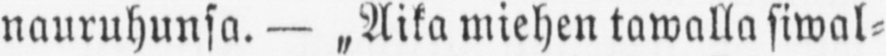nauruhunsa. — „Aika miehen tawalla siwal-
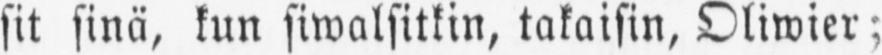sit sinä, kun siwalsitkin, takaisin, Oliwier;
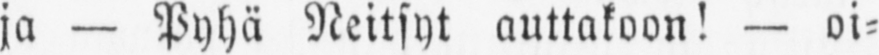ja — Pyhä Neitsyt auttakoon! — oi-
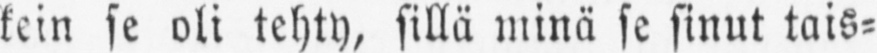kein se oli tehty, sillä minä se sinut tais-
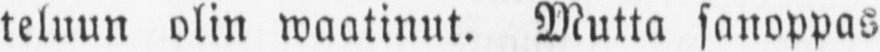teluun olin waatinut. Mutta sanoppas
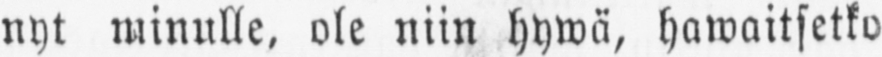nyt minulle, ole niin hywä, hawaitsetko
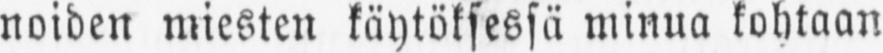noiden miesten käytöksessä minua kohtaan
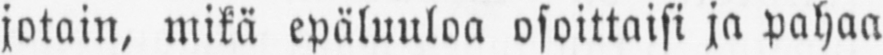jotain, mikä epäluuloa osoittaisi ja pahaa
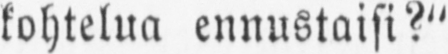kohtelua ennustaisi?"
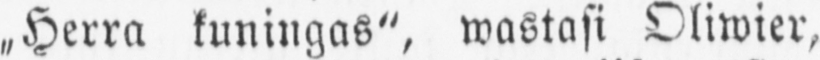„Herra kuningas", wastasi Oliwier,
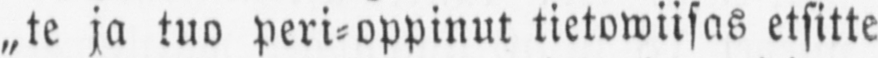„te ja tuo peri-oppinut tietowiisas etsitte
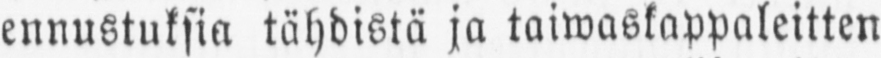ennustuksia tähdistä ja taiwaskappaleitten
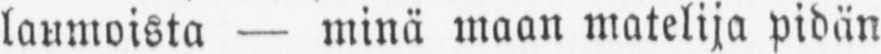laumoista — minä maan matelija pidän
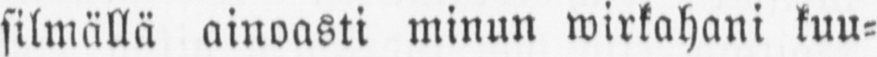silmällä ainoasti minun wirkahani kuu-
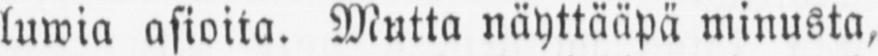luwia asioita. Mutta näyttääpä minusta,
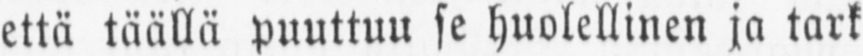että täällä puuttuu se huolellinen ja tark-
